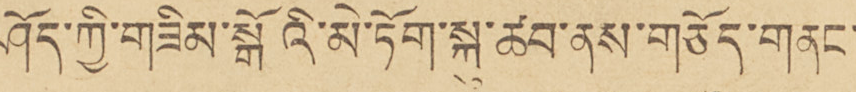ཤོད་ཀྱི་གཟིམ་སྒོའི་མེ་ཏོག་སྐུ་ཚབ་ནས་གཅོད་གནང་
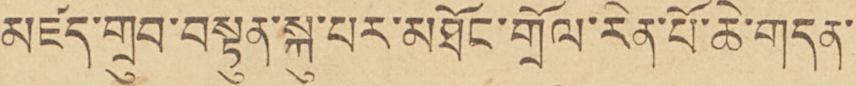མཛད་གྲུབ་བསྟུན་སྐུ་པར་མཐོང་གྲོལ་རིན་པོ་ཆེ་གདན་
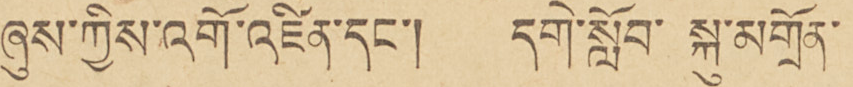ཞུས་ཀྱིས་འགོ་འཛིན་དང་། དགེ་སློབ་ སྐུ་མགྲོན་
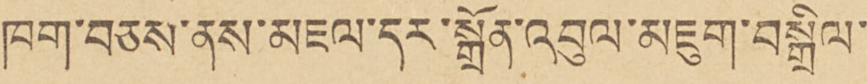ཁག་བཅས་ནས་མཇལ་དར་སྒྲོན་འབུལ་མཇུག་བསྒྲིལ་
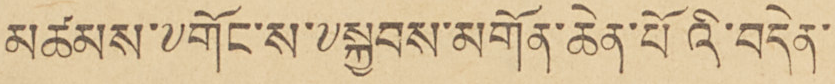མཚམས་༸གོང་ས་༸སྐྱབས་མགོན་ཆེན་པོའི་བདེན་
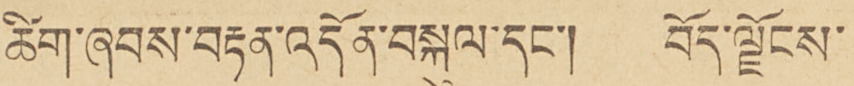ཚོག་ཞབས་བརྟན་འདོན་བསྐུལ་དང་། བོད་ལྗོངས་
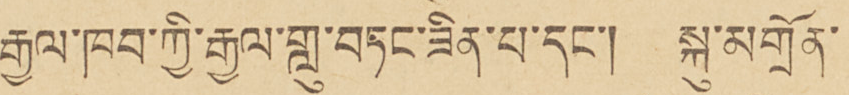རྒྱལ་ཁབ་ཀྱི་རྒྱལ་གླུ་བཏང་ཟིན་པ་དང་། སྐུ་མགྲོན་
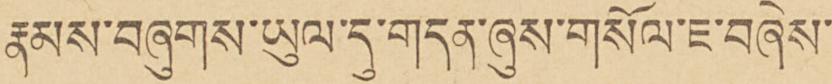རྣམས་བཞུགས་ཡུལ་དུ་གདན་ཞུས་གསོལ་ཇ་བཞེས་
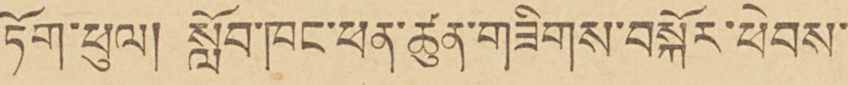ཏོག་ཕུལ། སློབ་ཁང་ཕན་ཚུལ་གཟིགས་བསྐོར་ཕེབས་
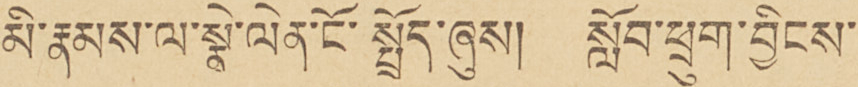མི་རྣམས་ལ་སྣེ་ལེན་ངོ་སྤྲོད་ཞུས། སློབ་ཕྲུག་བྱིངས་
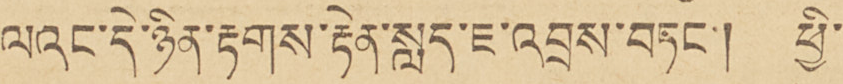ལའང་དེ་ཉིན་རྟགས་རྟེན་སླད་ཇ་འབྲས་བཏང་། ཕྱི་
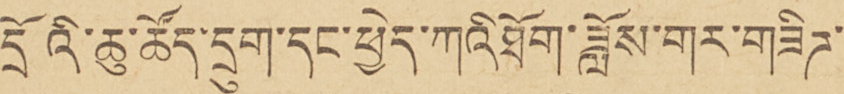དྲོའི་ཆུ་ཚོད་དྲུག་དང་ཕྱེད་ཀའིཐོག་ཟློས་གར་གཟིཊ་
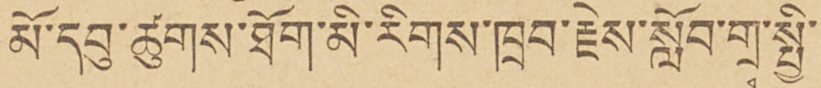མོ་དབུ་ཚུགས་ཐོག་མི་རིགས་ཁྲབ་རྗེས་སློབ་གྲྭ་སྤྱི་
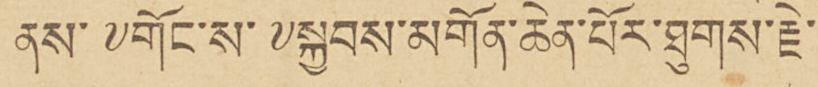ནས་༸གོང་ས་༸སྐྱབས་མགོན་ཆེན་པོར་ཐུགས་རྗེ་
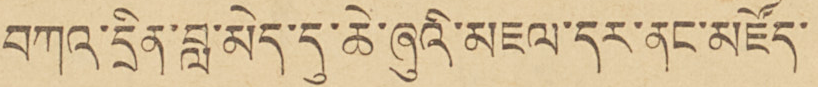བཀའ་དྲིན་བླ་མེད་དུ་ཆེ་ཞུའི་མཇལ་དར་ནང་མཛོད་
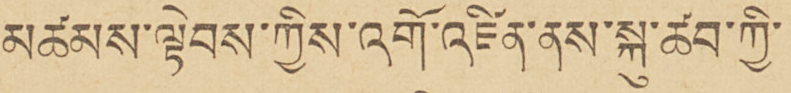མཚམས་ལྟེབས་ཀྱིས་འགོ་འཛིན་ན་སྐུ་ཚབ་ཀྱི་
